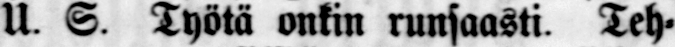U. S. Työtä onkin runsaasti Teh-
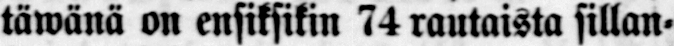täwänä on ensiksikin 74 rautaista sillan-
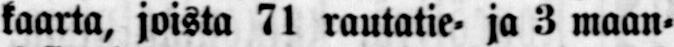kaarta, joista 71 rautatie- ja 3 maan-
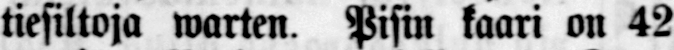tiesiltoja warten. Pisin kaari on 42
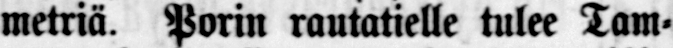metriä. Porin rautatielle tulee Tam-
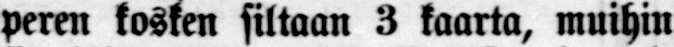peren kosken siltaan 3 kaarta, muihin
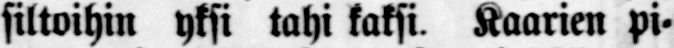siltoihin yksi tahi kaksi Kaarien pi-
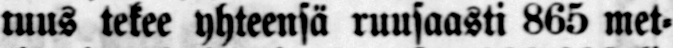tuus tekee yhteensä ruusaasti 865 met-
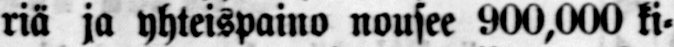riä ja yhteispaino nousee 900,000 ki-
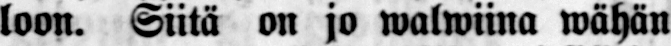loon. Siitä on jo walwiina wähän
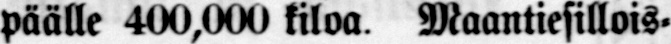päälle 400,000 kiloa Maantiesillois-
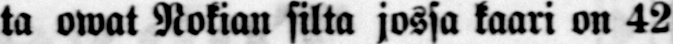ta owat Nokian silta jossa kaari on 42
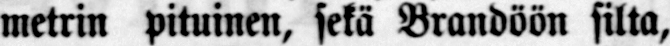metrin pituinen, sekä Brandöön silta,
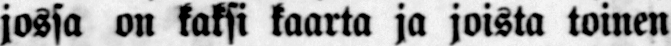jossa on kaksi kaarta ja joista toinen
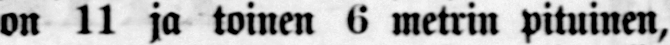on 11 ja toinen 6 metrin pituinen,
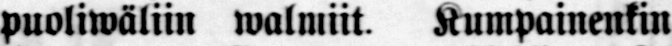puoliwäliin walmiit. Kumpainenkin
